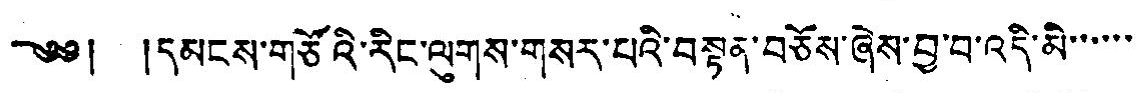༄༅། །དམངས་གཙོའི་རིང་ལུགས་གསར་པའི་བསྟན་བཅོས་ཞེས་བྱ་བ་འདི་མི་་་་་་
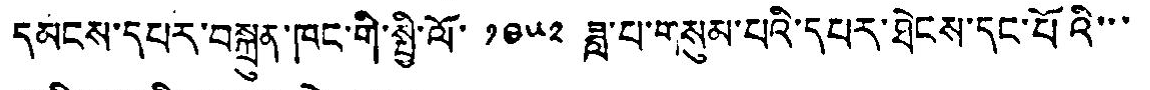དམངས་དཔར་བསྐྲུན་ཁང་གི་སྤྱི་ལོ་ ༡༩༥༢ ཟླ་པ་གསུམ་པའི་དཔར་ཐེངས་དང་པོའི་་་
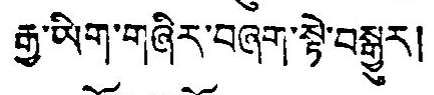རྒྱ་ཡིག་གཞིར་བཞག་སྟེ་བསྒྱུར།
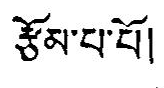རྩོམ་པ་པོ།
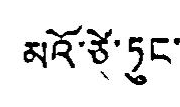མའོ་ཙེ་ཏུང་
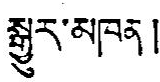སྒྱུར་མཁན །
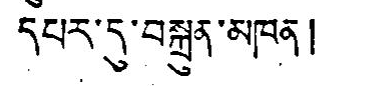དཔར་དུ་བསྐྲུན་མཁན །
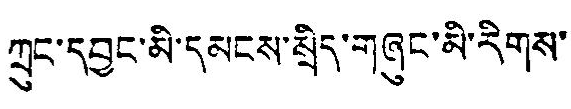ཀྲུང་དབྱུང་མི་དམངས་སྲིད་གཞུང་མི་རིགས་
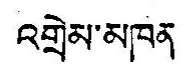འགྲེམ་མཁན་
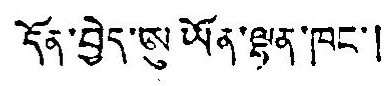དོན་བྱེད་ཨུ་ཡོན་ལྷན་ཁང་།
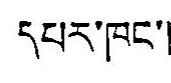དཔར་ཁང་།
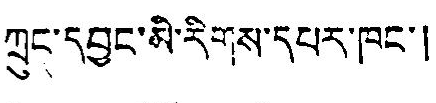ཀྲུང་དབྱུང་མི་རིགས་དཔར་ཁང་།
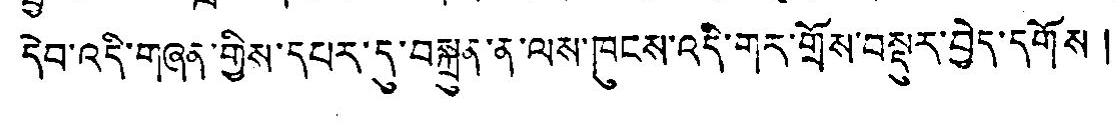དེབ་འདི་གཞན་གྱིས་དཔར་དུ་བསྐྲུན་ན་ལས་ཁུངས་འདི་གར་གྲོས་བསྡུར་བྱེད་དགོས །
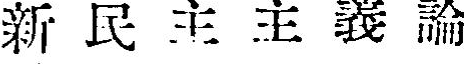新 民 主 主 義 論
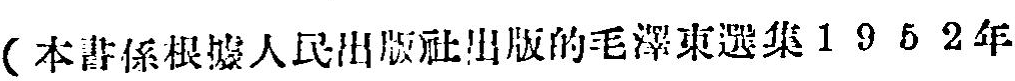（本書係根據人民出版社出版的毛澤東選集1 9 5 2年
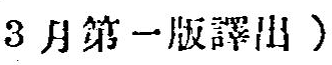3 月第一版譯出）
